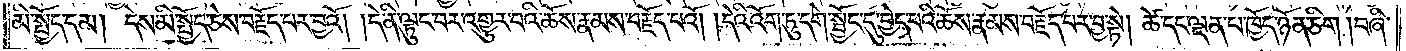མི་སྤྱོད་དམ། དེས་མི་སྤྱོད་ཅེས་བརྗོད་པར་བྱའོ། །དེ་ནི་ལྟུང་བར་འགྱུར་བའི་ཆོས་རྣམས་བརྗོད་པའོ། །དེའི་འོག་ཏུ་དགེ་སྦྱོང་དུ་བྱེད་བའི་ཆོས་རྣམས་བརྗོད་པར་བྱ་སྟེ། ཚེ་དང་ལྡན་པ་ཁྱོད་ཉོན་ཅིག །བཞི་
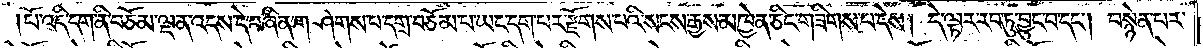པོ་འདི་དག་ནི་བཅོམ་ལྡན་འདས་དེ་བཞིན་གཤེགས་པ་དགྲ་བཅོམ་པ་ཡང་དག་པར་རྫོགས་པའི་སངས་རྒྱས་མཁྱེན་ཅིང་གཟིགས་པ་དེས། དེ་ལྟར་རབ་ཏུ་བྱུང་བ་དང༌། བསྙེན་པར་
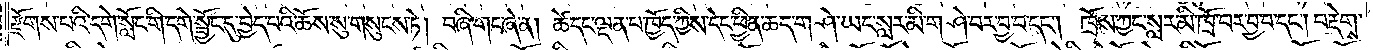རྫོགས་པའི་དགེ་སློང་གི་དགེ་སྦྱོང་དུ་བྱེད་པའི་ཆོས་སུ་གསུངས་ཏེ། བཞི་གང་ཞེ་ན། ཚེ་དང་ལྡན་པ་ཁྱོད་ཀྱིས་དེང་ཕྱིན་ཆད་གཤེ་ཡང་སླར་མི་གཤེ་བར་བྱ་བ་དང༌། ཁྲོས་ཀྱང་སླར་མི་ཁྲོ་བར་བྱ་བ་དང༌། བརྡེགས་
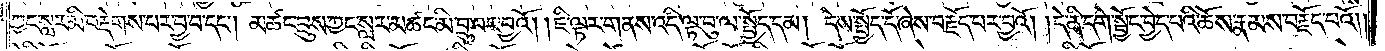ཀྱང་སླར་མི་བརྡེགས་པར་བྱ་བ་དང༌། མཚང་བྲུས་ཀྱང་སླར་མཚང་མི་བྲུ་བར་བྱའོ། །ཇི་ལྟར་གནས་འདི་ལྟ་བུ་ལ་སྤྱོད་དམ། དེས་སྤྱོད་དོ་ཞེས་བརྗོད་པར་བྱའོ། །དེ་ནི་དགེ་སྦྱོང་བྱེད་པའི་ཆོས་རྣམས་བརྗོད་པའོ༎
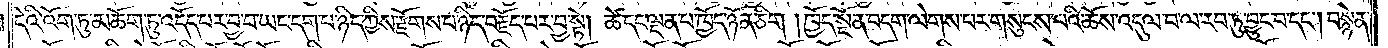དེའི་འོག་ཏུ་མཆོག་ཏུ་འདོད་པར་བྱ་བ་ཡང་དག་པ་ཉིད་ཀྱིས་རྫོགས་པ་ཉིད་བརྗོད་པར་བྱ་སྟེ། ཚེ་དང་ལྡན་པ་ཁྱོད་ཉོན་ཅིག །ཁྱོད་སྔོན་བདག་ལེགས་པར་གསུངས་པའི་ཆོས་འདུལ་བ་ལ་རབ་ཏུ་བྱུང་བ་དང༌། བསྙེན་
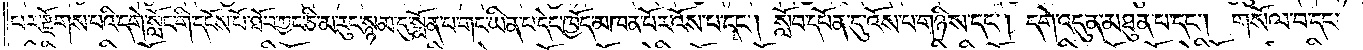པར་རྫོགས་པའི་དགེ་སློང་གི་དངོས་པོ་ཐོབ་ཀྱང་ཅི་མ་རུང་སྙམ་དུ་སྨོན་པ་གང་ཡིན་པ་དེང་ཁྱོད་མཁན་པོར་འོས་པ་དང༌། སློབ་དཔོན་དུ་འོས་པ་གཉིས་དང༌། དགེ་འདུན་མཐུན་པ་དང༌། གསོལ་བ་དང་
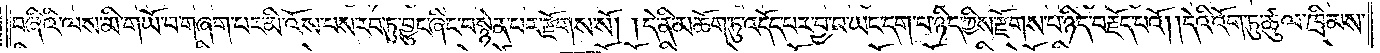བཞིའི་ལས་མི་གཡོ་བ་གཞག་པར་མི་འོས་པས་རབ་ཏུ་བྱུང་ཞིང་བསྙེན་པར་རྫོགས་སོ། །དེ་ནི་མཆོག་ཏུ་འདོད་པར་བྱ་བ་ཡང་དག་པ་ཉིད་ཀྱིས་རྫོགས་པ་ཉིད་བརྗོད་པའོ། །དེའི་འོག་ཏུ་ཚུལ་ཁྲིམས་
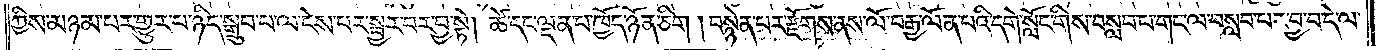ཀྱིས་མཉམ་པར་གྱུར་པ་ཉིད་སྒྲུབ་པ་ལ་ངེས་པར་སྦྱར་བར་བྱ་སྟེ། ཚེ་དང་ལྡན་པ་ཁྱོད་ཉོན་ཅིག །བསྙེན་པར་རྫོགས་ནས་ལོ་བརྒྱ་ལོན་པའི་དགེ་སློང་གིས་བསླབ་པ་གང་ལ་བསླབ་པར་བྱ་བ་དེ་ལ་
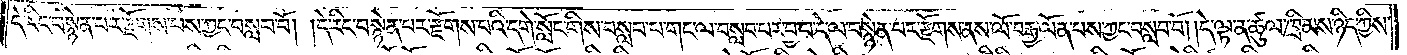དེ་རིང་བསྙེན་པར་རྫོགས་པས་ཀྱང་བསླབ་བོ། །དེ་རིང་བསྙེན་པར་རྫོགས་པའི་དགེ་སློང་གིས་བསླབ་པ་གང་ལ་བསླབ་པར་བྱ་བ་དེ་ལ་བསྙེན་པར་རྫོགས་ནས་ལོ་བརྒྱ་ལོན་པས་ཀྱང་བསླབ་བོ། །དེ་ལྟ་ན་ཚུལ་ཁྲིམས་ཉིད་ཀྱིས་
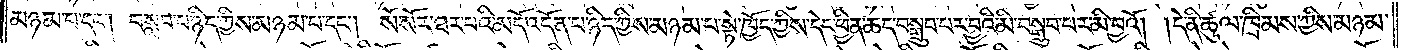མཉམ་པ་དང༌། བསླབ་པ་ཉིད་ཀྱིས་མཉམ་པ་དང༌། སོ་སོར་ཐར་པའི་མདོ་འདོན་པ་ཉིད་ཀྱིས་མཉམ་པ་སྟེ་ཁྱོད་ཀྱིས་དེང་ཕྱིན་ཆད་བསྒྲུབ་པར་བྱའི་མི་བསྒྲུབ་པར་མི་བྱའོ། །དེ་ནི་ཚུལ་ཁྲིམས་ཀྱིས་མཉམ་
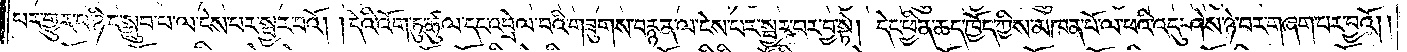པར་གྱུར་པ་ཉིད་སྒྲུབ་པ་ལ་ངེས་པར་སྦྱར་བའོ། །དེའི་འོག་ཏུ་ཚུལ་དང་འབྲེལ་བའི་གཟུགས་བརྙན་ལ་ངེས་པར་སྦྱར་བར་བྱ་སྟེ། དེང་ཕྱིན་ཆད་ཁྱོད་ཀྱིས་མཁན་པོ་ལ་ཕའི་འདུ་ཤེས་ཉེ་བར་གཞག་པར་བྱའོ། །
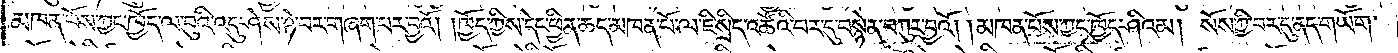མཁན་པོས་ཀྱང་ཁྱོད་ལ་བུའི་འདུ་ཤེས་ཉེ་བར་གཞག་པར་བྱའོ། །ཁྱོད་ཀྱིས་དེང་ཕྱིན་ཆད་མཁན་པོ་ལ་ཇི་སྲིད་འཚོའི་བར་དུ་བསྙེན་བཀུར་བྱའོ། །མཁན་པོས་ཀྱང་ཁྱོད་ཤིའམ། སོས་ཀྱི་བར་དུ་ནད་གཡོག་
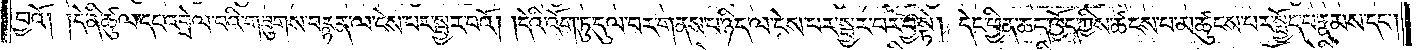བྱའོ། །དེ་ནི་ཚུལ་དང་འབྲེལ་བའི་གཟུགས་བརྙན་ལ་ངེས་པར་སྦྱར་བའོ། །དེའི་འོག་ཏུ་དུལ་བར་གནས་པ་ཉིད་ལ་ངེས་པར་སྦྱར་བར་བྱ་སྟེ། དེང་ཕྱིན་ཆད་ཁྱོད་ཀྱིས་ཚངས་པ་མཚུངས་པར་སྤྱོད་པ་རྣམས་དང༌།
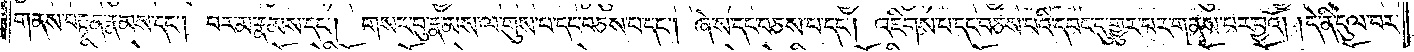གནས་བརྟན་རྣམས་དང༌། བར་མ་རྣམས་དང༌། གསར་བུ་རྣམས་ལ་གུས་པ་དང་བཅས་པ་དང༌། ཞེས་དང་བཅས་པ་དང༌། འཇིགས་པ་དང་བཅས་པའི་དབང་དུ་གྱུར་པར་གནས་པར་བྱའོ། །དེ་ནི་དུལ་བར་
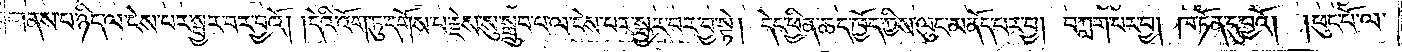གནས་པ་ཉིད་ལ་ངེས་པར་སྦྱར་བར་བྱའོ། །དེའི་འོག་ཏུ་དགོས་པ་རྗེས་སུ་སྒྲུབ་པ་ལ་ངེས་པར་སྦྱར་བར་བྱ་སྟེ། དེང་ཕྱིན་ཆད་ཁྱོད་ཀྱིས་ལུང་མནོད་པར་བྱ། བཀླག་པར་བྱ། ཁ་ཏོན་དུ་བྱའོ། །ཕུང་པོ་ལ་
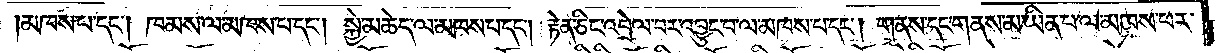མཁས་པ་དང༌། ཁམས་ལ་མཁས་པ་དང༌། སྐྱེ་མཆེད་ལ་མཁས་པ་དང༌། རྟེན་ཅིང་འབྲེལ་བར་འབྱུང་བ་ལ་མཁས་པ་དང༌། གནས་དང་གནས་མ་ཡིན་པ་ལ་མཁས་པར་
